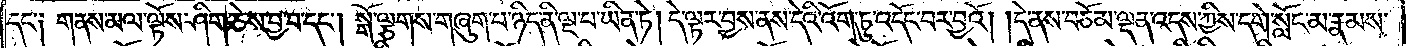དང༌། གནས་མལ་ལྟོས་ཤིག་ཅེས་བྱ་བ་དང༌། སྒོ་ལྕགས་གཞུག་པ་ཉིད་ནི་ལྔ་པ་ཡིན་ཏེ། དེ་ལྟར་བྱས་ནས་དེའི་འོག་ཏུ་འདོང་བར་བྱའོ། །དེ་ནས་བཅོམ་ལྡན་འདས་ཀྱིས་དགེ་སློང་མ་རྣམས་
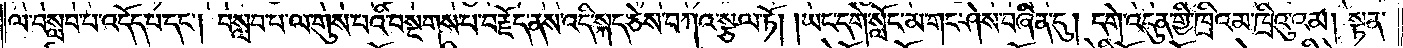ལ་བསླབ་པ་འདེད་པ་དང༌། བསླབ་པ་ལ་གུས་པའི་བསྔགས་པ་བརྗོད་ནས་འདི་སྐད་ཅེས་བཀའ་སྩལ་ཏོ། །ཡང་དགེ་སློང་མ་གང་ཤེས་བཞིན་དུ། དགེ་འདུན་གྱི་ཁྲིའམ་ཁྲིའུ་འམ། སྟན་
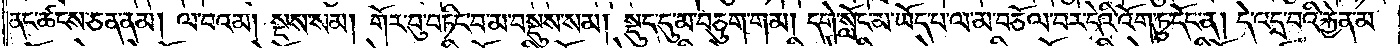ནང་ཚངས་ཅན་ནམ། ལ་བའམ། སྔས་སམ། གོར་བུ་བཏིང་བ་མ་བསྡུས་སམ། སྡུད་དུ་མ་བཅུག་གམ། དགེ་སློང་མ་ཡོད་པ་ལ་མ་བཅོལ་བར་དེའི་འོག་ཏུ་དོང་ན། དེ་འདྲ་བའི་རྐྱེན་མ་
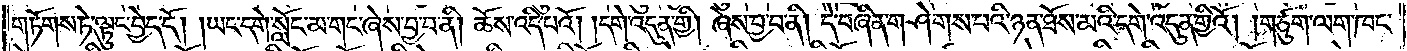གཏོགས་ཏེ་ལྟུང་བྱེད་དོ། །ཡང་དགེ་སློང་མ་གང་ཞེས་བྱ་བ་ནི། ཆོས་འདི་བའོ། །དགེ་འདུན་གྱི། ཞེས་བྱ་བ་ནི། དེ་བཞིན་གཤེགས་པའི་ཉན་ཐོས་མའི་དགེ་འདུན་གྱིའོ། །གཙུག་ལག་ཁང་
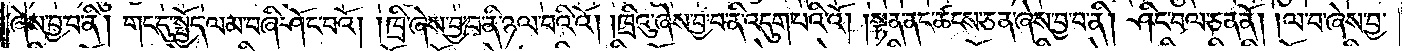ཞེས་བྱ་བ་ནི། གང་དུ་སྤྱོད་ལམ་བཞི་ཤོང་བའོ། །ཁྲི་ཞེས་བྱ་བ་ནི་ཉལ་བའི་འོ། །ཁྲིའུ་ཞེས་བྱ་བ་ནི་འདུག་པའི་འོ། །སྟན་ནང་ཚངས་ཅན་ཞེས་བྱ་བ་ནི། ཤིང་བལ་ཅན་ནོ། །ལ་བ་ཞེས་བྱ་
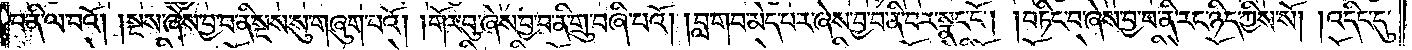བ་ནི་ལ་བའོ། །སྔས་ཞེས་བྱ་བ་ནི་སྔས་སུ་གཞུག་པའོ། །གོར་བུ་ཞེས་བྱ་བ་ནི་གྲུ་བཞི་པའོ། །བླ་གབ་མེད་པར་ཞེས་བྱ་བ་ནི་བར་སྣང་ངོ༌། །བཏིང་བ་ཞེས་བྱ་བ་ནི་རང་ཉིད་ཀྱིས་སོ། །འདིང་དུ་
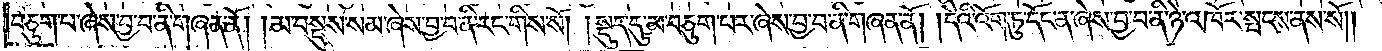བཅུག་པ་ཞེས་བྱ་བ་ནི་གཞན་ནོ། །མ་བསྡུས་སམ་ཞེས་བྱ་བ་ནི་རང་གིས་སོ། །སྡུད་དུ་མ་བཅུག་པར་ཞེས་བྱ་བ་ནི་གཞན་ནོ། །དེའི་འོག་ཏུ་དོང་ན་ཞེས་བྱ་བ་ནི་ཉེ་འཁོར་སྤངས་ནས་སོ༎
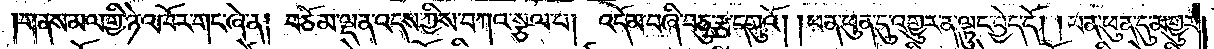གནས་མལ་གྱི་ཉེ་འཁོར་གང་ཞེ་ན། བཅོམ་ལྡན་འདས་ཀྱིས་བཀའ་སྩལ་པ། འདོམ་བཞི་བཅུ་རྩ་དགུའོ། །ཕན་ཕུན་དུ་འགྱུར་ན་ལྟུང་བྱེད་དོ། །ཕན་ཕུན་དུ་མ་གྱུར་
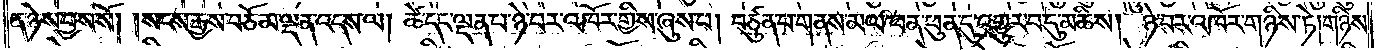ན་ཉེས་བྱས་སོ། །སངས་རྒྱས་བཅོམ་ལྡན་འདས་ལ། ཚེ་དང་ལྡན་པ་ཉེ་བར་འཁོར་གྱིས་ཞུས་པ། བཙུན་པ་གནས་མལ་ཕན་ཕུན་དུ་འགྱུར་བ་དུ་མཆིས། ཉེ་བར་འཁོར་གཉིས་ཏེ།གཉིས་
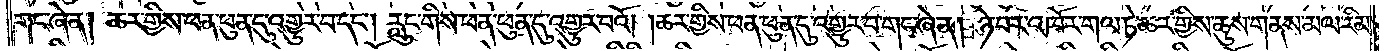གང་ཞེ་ན། ཆར་གྱིས་ཕན་ཕུན་དུ་འགྱུར་བ་དང༌། རླུང་གིས་ཕན་ཕུན་དུ་འགྱུར་བའོ། །ཆར་གྱིས་ཕན་ཕུན་དུ་འགྱུར་བ་གང་ཞེ་ན། ཉེ་བར་འཁོར་གལ་ཏེ་ཆར་གྱིས་ཆུས་གནས་མལ་རིམ་
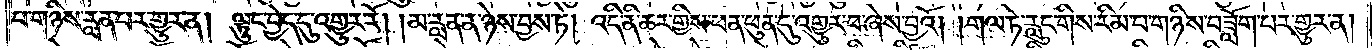པ་གཉིས་རླན་པར་གྱུར་ན། ལྟུང་བྱེད་དུ་འགྱུར་རོ། །མ་རླན་ན་ཉེས་བྱས་ཏེ། འདི་ནི་ཆར་གྱིས་ཕན་ཕུན་དུ་འགྱུར་བ་ཞེས་བྱའོ། །གལ་ཏེ་རླུང་གིས་རིམ་པ་གཉིས་བཟློག་པར་གྱུར་ན།
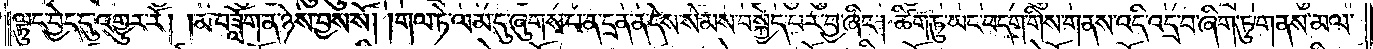ལྟུང་བྱེད་དུ་འགྱུར་རོ། །མ་བཟློག་ན་ཉེས་བྱས་སོ། །གལ་ཏེ་ལམ་དུ་ཞུགས་པ་ན་དྲན་ན་དེས་སེམས་བསྐྱེད་པར་བྱ་ཞིང༌། ཚིག་ཏུ་ཡང་བདག་གིས་གནས་འདི་འདྲ་བ་ཞིག་ཏུ་གནས་མལ་
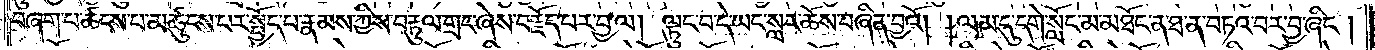བཞག་པ་ཚངས་པ་མཚུངས་པར་སྤྱོད་པ་རྣམས་ཀྱིས་བརྟུལ་གྲང་ཞེས་བརྗོད་པར་བྱ་ལ། ལྟུང་བ་དེ་ཡང་སླར་ཆོས་བཞིན་བྱའོ། །ལམ་དུ་དགེ་སློང་མ་མཐོང་ན་ཐ་ན་བཏའ་བར་བྱ་ཞིང༌།
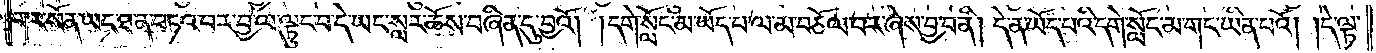གར་སོན་ཡང་ཐ་ན་བཏའ་བར་བྱ་བ་ལ་ལྟུང་བ་དེ་ཡང་སླར་ཆོས་བཞིན་དུ་བྱའོ། །དགེ་སློང་མ་ཡོད་པ་ལ་མ་བཅོལ་བར་ཞེས་བྱ་བ་ནི། དེ་ན་ཡོད་པའི་དགེ་སློང་མ་གང་ཡིན་པའོ། །དེ་ལྟ་
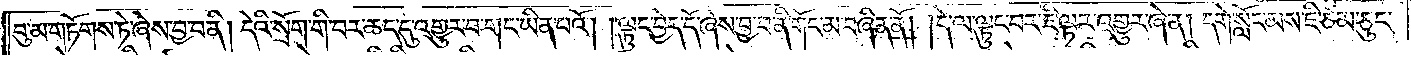བུ་མ་གཏོགས་ཏེ་ཞེས་བྱ་བ་ནི། དེའི་སྲོག་གི་བར་ཆད་དུ་འགྱུར་བ་གང་ཡིན་པའོ། །ལྟུང་བྱེད་དོ་ཞེས་བྱ་བ་ནི་གོང་མ་བཞིན་ནོ། །དེ་ལ་ལྟུང་བར་ཇི་ལྟར་འགྱུར་ཞེ་ན། དགེ་སློང་མས་ཇི་ཙམ་ཅུང་
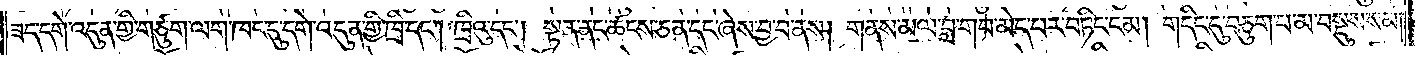ཟད་དགེ་འདུན་གྱི་གཙུག་ལག་ཁང་དུ་དགེ་འདུན་གྱི་ཁྲི་དང༌། ཁྲིའུ་དང༌། སྟན་ནང་ཚངས་ཅན་དང་ཞེས་བྱ་བ་ནས། གནས་མལ་བླ་གབ་མེད་པར་བཏིང་ངམ། གདིང་དུ་བཅུག་པ་མ་བསྡུས་སམ།
